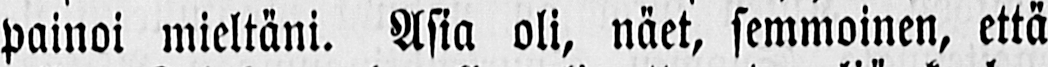painoi mieltäni. Asia oli, näet, semmoinen, että
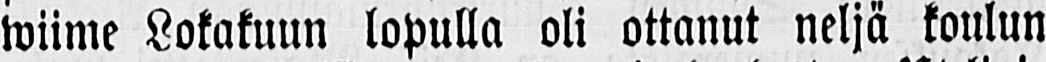wiime Lokakuun lopulla oli ottanut neljä koulun
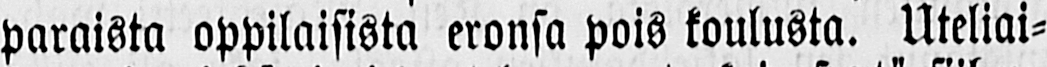paraista oppilaisista eronsa pois koulusta. Uteliai-
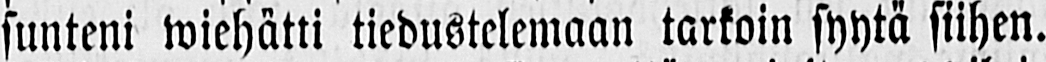sunteni wiehätti tiedustelemaan tarkoin syytä siihen.
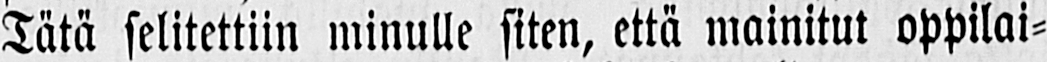Tätä selitettiin minulle siten, että mainitut oppilai-
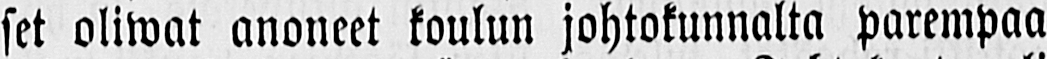set oliwat anoneet koulun johtokunnalta parempaa
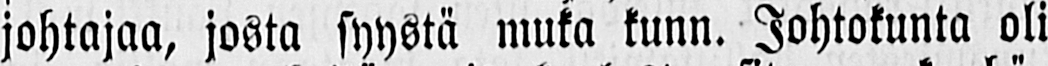johtajaa, josta syystä muka kunn. Johtokunta oli
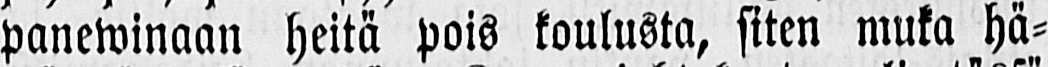panewinaan heitä pois koulusta, siten muka hä-
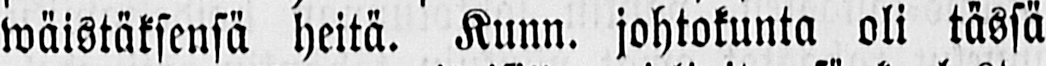wäistäksensä heitä. Kunn. johtokunta oli tässä
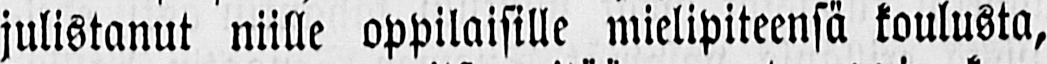julistanut niille oppilaisille mielipiteensä koulusta,
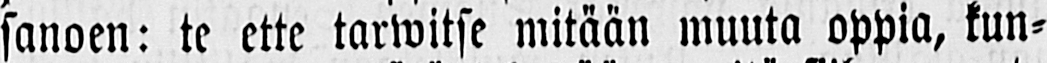sanoen: te ette tarwitse mitään muuta oppia, kun-
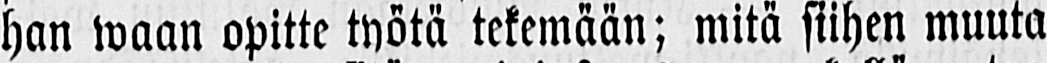han waan opitte työtä tekemään; mitä siihen muuta
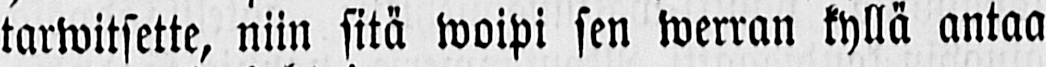tarwitsette, niin sitä woipi sen werran kyllä antaa
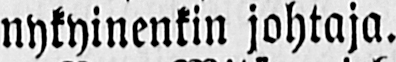nykyinenkin johtaja.
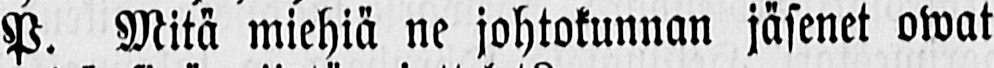P. Mitä miehiä ne johtokunnan jäsenet owat
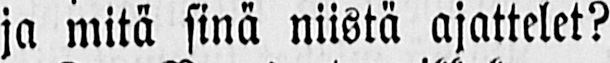ja mitä sinä niistä ajattelet?
